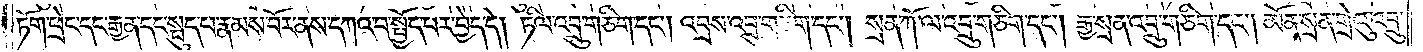ཏོག་བྲེང་དང་རྒྱན་དང་སྦུད་པ་རྣམས་བོར་ནས་དཀའ་བ་སྤྱོད་པར་བྱེད་དེ། ཏིལ་འབྲུ་གཅིག་དང༌། འབྲས་འབྲུ་གཅིག་དང༌། སྲན་ཀོ་ལ་འབྲུ་གཅིག་དང༌། རྒྱ་སྲན་འབྲུ་གཅིག་དང༌། མོན་སྲན་གྲེའུ་འབྲུ་
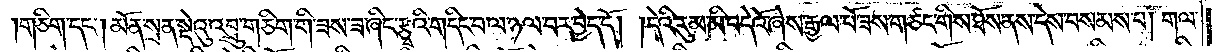།གཅིག་དང༌། མོན་སྲན་སྡེའུ་འབྲུ་གཅིག་གི་ཟས་ཟ་ཞིང་རྩྭའི་གདིང་བ་ལ་ཉལ་བར་བྱེད་དོ། །དེའི་རུམ་མི་བདེའོ་ཞེས་རྒྱལ་པོ་ཟས་གཙང་གིས་ཐོས་ནས་དེས་བསམས་པ། གལ་
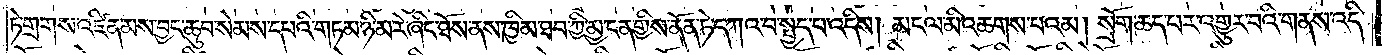ཏེ་གྲགས་འཛིན་མས་བྱང་ཆུབ་སེམས་དཔའི་གཏམ་ཉི་མ་རེ་ཞིང་ཐོས་ནས་ཁྱིམ་ཐབ་ཀྱི་མྱ་ངན་གྱིས་ནོན་ཏེ་དཀའ་བ་སྤྱད་པ་འདིས། མངལ་མི་འཆགས་པའམ། སྲོག་ཆད་པར་འགྱུར་བའི་གནས་འདི་
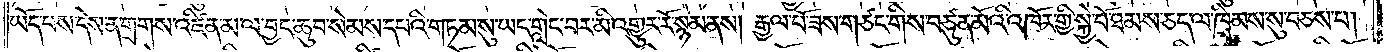ཡོད་པས་དེས་ན་གྲགས་འཛིན་མ་ལ་བྱང་ཆུབ་སེམས་དཔའི་གཏམ་སུ་ཡང་གླེང་བར་མི་འགྱུར་རོ་སྙམ་ནས། རྒྱལ་པོ་ཟས་གཙང་གིས་བཙུན་མོའི་འཁོར་གྱི་སྐྱེ་བོ་ཐམས་ཅད་ལ་ཁྲིམས་སུ་བཅས་པ།
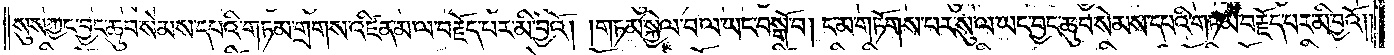སུས་ཀྱང་བྱང་ཆུབ་སེམས་དཔའི་གཏམ་གྲགས་འཛིན་མ་ལ་བརྗོད་པར་མི་བྱའོ། །གཏམ་སྐྱེལ་བ་ལ་ཡང་བསྒོ་བ། ང་མ་གཏོགས་པར་སུ་ལ་ཡང་བྱང་ཆུབ་སེམས་དཔའི་གཏམ་བརྗོད་པར་མི་བྱའོ། །
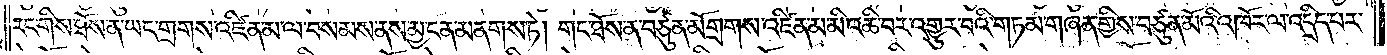རང་གིས་ཐོས་ན་ཡང་གྲགས་འཛིན་མ་ལ་བསམས་ནས་མྱ་ངན་མནགས་ཏེ། གང་ཐོས་ན་བཙུན་མོ་གྲགས་འཛིན་མ་མི་འཆི་བར་འགྱུར་བའི་གཏམ་གཞན་གྱིས་བཙུན་མོའི་འཁོར་ལ་འདྲིད་པར་
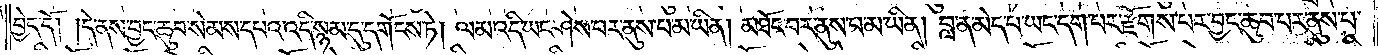བྱེད་དོ། །དེ་ནས་བྱང་ཆུབ་སེམས་དཔའ་འདི་སྙམ་དུ་དགོངས་ཏེ། ལམ་འདི་ཡང་ཤེས་པར་ནུས་པ་མ་ཡིན། མཐོང་བར་ནུས་པ་མ་ཡིན། བླ་ན་མེད་པ་ཡང་དག་པར་རྫོགས་པར་བྱང་ཆུབ་པར་ནུས་པ་
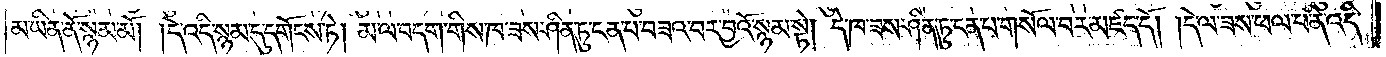མ་ཡིན་ནོ་སྙམ་མོ། །དེ་འདི་སྙམ་དུ་དགོངས་ཏེ། མ་ལ་བདག་གིས་ཁ་ཟས་ཤིན་ཏུ་ངན་པ་བཟའ་བར་བྱའོ་སྙམ་སྟེ། དེ་ཁ་ཟས་ཤིན་ཏུ་ངན་པ་གསོལ་བར་མཛད་དོ། །དེ་ལ་ཟས་ཕལ་བ་ནི་འདི་
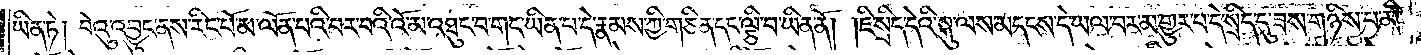ཡིན་ཏེ། བེའུ་འབྱུང་ནས་རིང་པོ་མ་ལོན་པའི་བར་བའི་འོ་མ་འཐུང་བ་གང་ཡིན་པ་དེ་རྣམས་ཀྱི་གཅིན་དང་ལྕི་བ་ཡིན་ནོ། །ཇི་སྲིད་དེའི་སྐུ་ལས་མདངས་དེ་ཡལ་བར་མ་གྱུར་པ་དེ་སྲིད་དུ་ཟས་གཉིས་པ་མི་
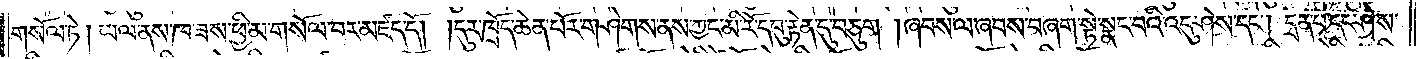གསོལ་ཏེ། ཡལ་ནས་ཁ་ཟས་ཕྱི་མ་གསོལ་བར་མཛད་དོ། །དུར་ཁྲོད་ཆེན་པོར་གཤེགས་ནས་ཀྱང་མི་རོ་དབུ་རྟེན་དུ་བཅུག །ཞབས་ལ་ཞབས་བཞག་སྟེ་སྣང་བའི་འདུ་ཤེས་དང༌། དྲན་པ་དང་ཤེས་
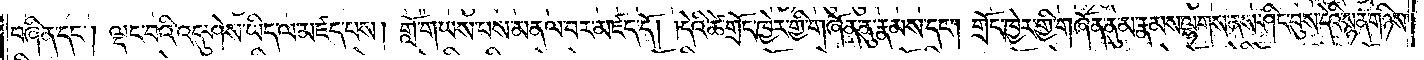བཞིན་དང༌། ལྡང་བའི་འདུ་ཤེས་ཡིད་ལ་མཛད་པས། གློ་གཡས་པས་མནལ་བར་མཛད་དོ། །དེའི་ཚེ་གྲོང་ཁྱེར་གྱི་གཞོན་ནུ་རྣམས་དང༌། གྲོང་ཁྱེར་གྱི་གཞོན་ནུ་མ་རྣམས་ལྷགས་ནས་ཤིང་བུས་དེའི་སྙན་གཉིས་
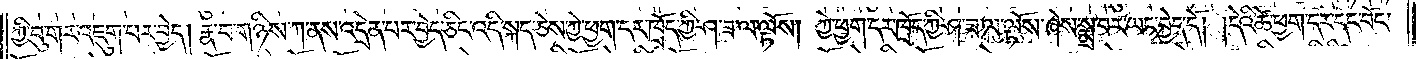ཀྱི་བུ་གར་འཇུག་པར་བྱེད། རྣ་བ་གཉིས་ཀ་ནས་འདྲེན་པར་བྱེད་ཅིང་འདི་སྐད་ཅེས་ཀྱེ་ཕྱག་དར་ཁྲོད་ཀྱི་ཤ་ཟ་ལ་ལྟོས། ཀྱེ་ཕྱག་དར་ཁྲོད་ཀྱི་ཤ་ཟ་ལ་ལྟོས་ཞེས་སྨྲ་བར་ཡང་བྱེད་དེ། །དེའི་ཚེ་ཕྱག་དར་དང་བོང་
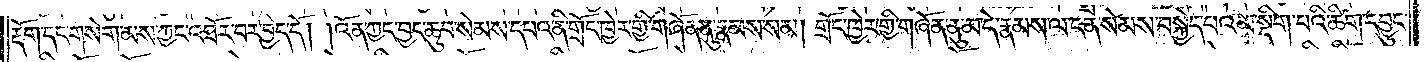རྡོག་དང་གསེག་མས་ཀྱང་འཐོར་བར་བྱེད་དོ། །འོན་ཀྱང་བྱང་ཆུབ་སེམས་དཔའ་ནི་གྲོང་ཁྱེར་གྱི་གཞོན་ནུ་རྣམས་སམ། གྲོང་ཁྱེར་གྱི་གཞོན་ནུ་མ་དེ་རྣམས་ལ་ངན་སེམས་བསྐྱེད་པའམ་སྡིག་པའི་ཚིག་དབྱུང་
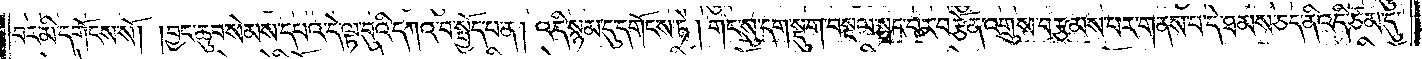བར་མི་དགོངས་སོ། །བྱང་ཆུབ་སེམས་དཔའ་དེ་ལྟ་བུའི་དཀའ་བ་སྤྱོད་པ་ན། འདི་སྙམ་དུ་དགོངས་ཏེ། གང་སུ་དག་སྡུག་བསྔལ་སྤང་པར་བརྩོན་འགྲུས་བརྩམས་པར་གནས་པ་དེ་ཐམས་ཅད་ནི་འདི་ཙམ་དུ་
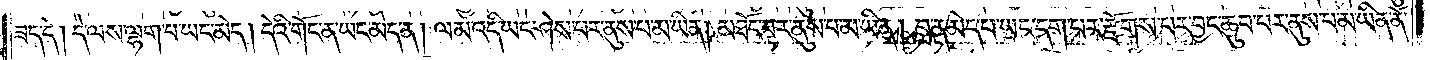ཟད་དེ། དེ་ལས་ལྷག་པ་ཡང་མེད། དེའི་གོང་ན་ཡང་མེད་ན། ལམ་འདི་ཡང་ཤེས་པར་ནུས་པ་མ་ཡིན། མཐོང་བར་ནུས་པ་མ་ཡིན། བླ་ན་མེད་པ་ཡང་དག་པར་རྫོགས་པར་བྱང་ཆུབ་པར་ནུས་པ་མ་ཡིན་ནོ་
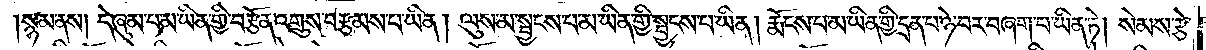སྙམ་ནས། དེ་ཞུམ་པ་མ་ཡིན་གྱི་བརྩོན་འགྲུས་བརྩམས་པ་ཡིན། ལུས་མ་སྦྱངས་པ་མ་ཡིན་གྱི་སྦྱངས་པ་ཡིན། རྨོངས་པ་མ་ཡིན་གྱི་དྲན་པ་ཉེ་བར་བཞག་པ་ཡིན་ཏེ། སེམས་རྩེ་
